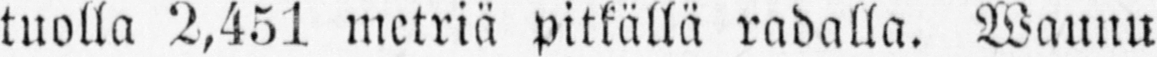tuolla 2,451 metriä pitkällä radalla. Waunu
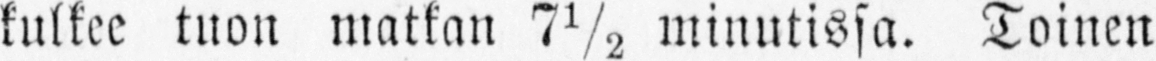kulkee tuon matkan 7 ½ minutissa. Toinen
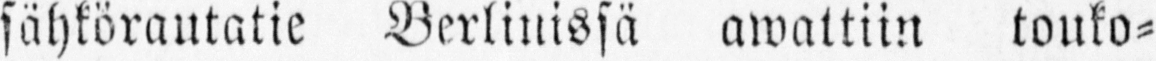sähkörautatie Berlinissä awaltiin touko-
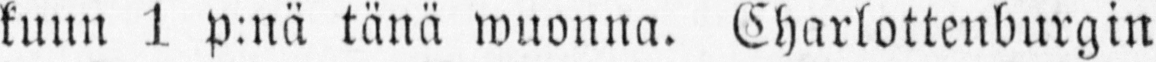kuun 1 p:nä tänä wuonna. Charlottenburgin
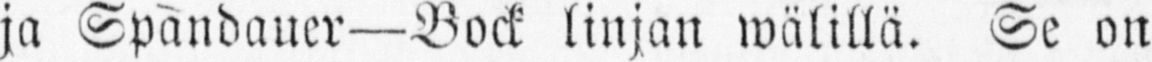ja Spandauer—Bock linjan wälillä. Se on
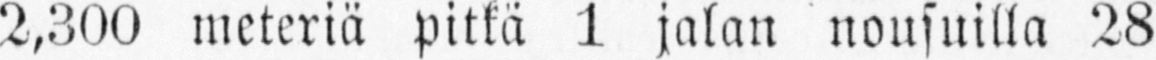2,300 meteriä pitkä 1 jalan nousuilla 28
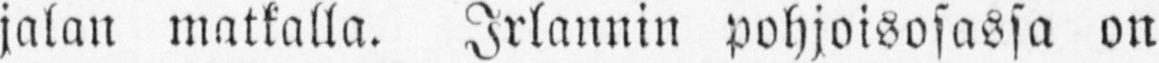jalan matkalla. Irlannin pohjoisosassa on
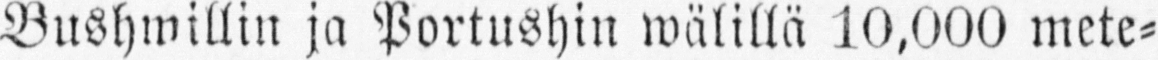Bushwillin ja Portushin wälillä 10,000 mete-
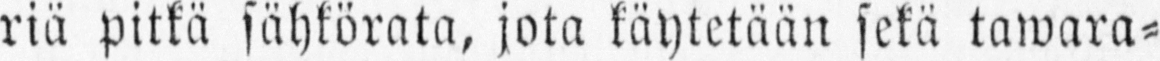riä pitkä sähkörata, jota käytetään sekä tawara-
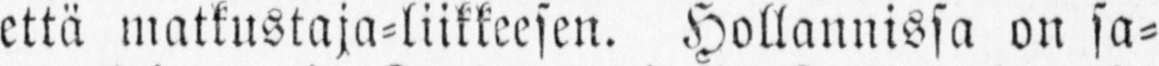että matkustaja-liikkeesen. Hollannissa on sa-
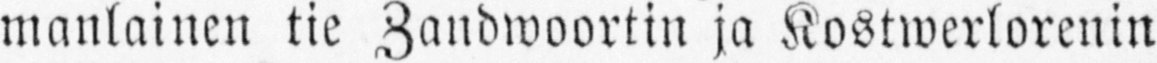manlainen tie Zandwoortin ja Kostwerlorenin
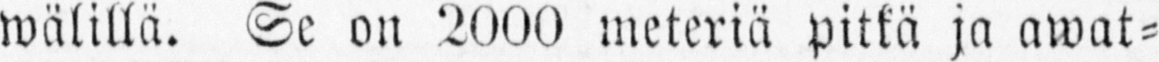wälillä. Se on 2000 meteriä pitkä ja awat-
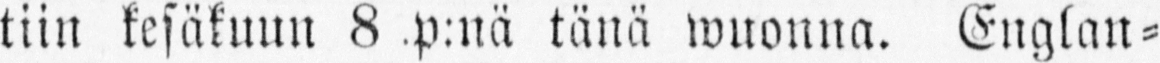tiin kesäkuun 8 p:nä tänä wuonna. Englan-
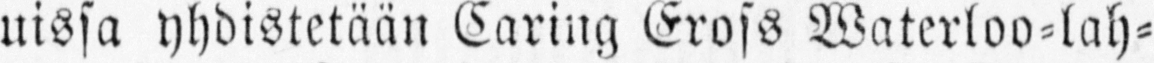uissa yhdistetään Caring Gross Waterloo-lah-
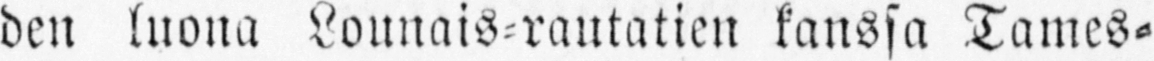den luona Lounais-rautatien kanssa Tames-
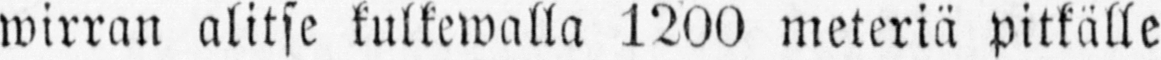wirran alitse kulkewalla 1200 meteriä pitkälle
